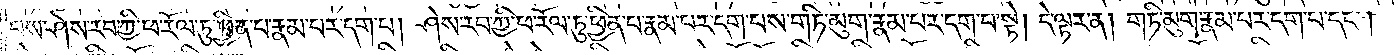པས་ཤེས་རབ་ཀྱི་ཕ་རོལ་ཏུ་ཕྱིན་པ་རྣམ་པར་དག་པ། ཤེས་རབ་ཀྱི་ཕ་རོལ་ཏུ་ཕྱིན་པ་རྣམ་པར་དག་པས་གཏི་མུག་རྣམ་པར་དག་པ་སྟེ། དེ་ལྟར་ན། གཏི་མུག་རྣམ་པར་དག་པ་དང༌།
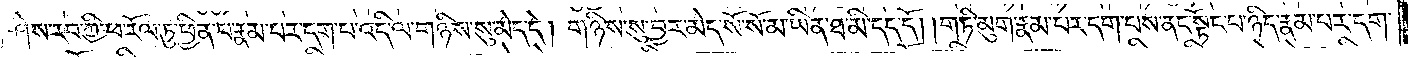ཤེས་རབ་ཀྱི་ཕ་རོལ་ཏུ་ཕྱིན་པ་རྣམ་པར་དག་པ་འདི་ལ་གཉིས་སུ་མེད་དེ། གཉིས་སུ་བྱར་མེད་སོ་སོ་མ་ཡིན་ཐ་མི་དད་དོ། །གཏི་མུག་རྣམ་པར་དག་པས་ནང་སྟོང་པ་ཉིད་རྣམ་པར་དག་
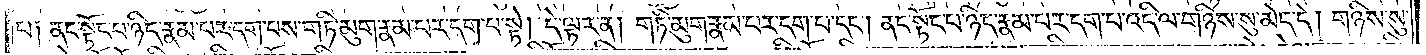པ༑ ནང་སྟོང་པ་ཉིད་རྣམ་པར་དག་པས་གཏི་མུག་རྣམ་པར་དག་པ་སྟེ། དེ་ལྟར་ན། གཏི་མུག་རྣམ་པར་དག་པ་དང༌། ནང་སྟོང་པ་ཉིད་རྣམ་པར་དག་པ་འདི་ལ་གཉིས་སུ་མེད་དེ། གཉིས་སུ་
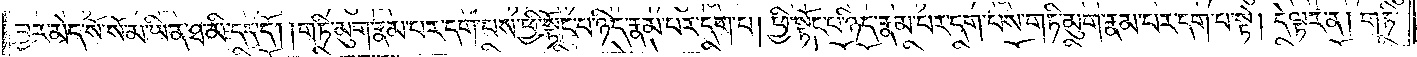བྱར་མེད་སོ་སོ་མ་ཡིན་ཐ་མི་དད་དོ། །གཏི་མུག་རྣམ་པར་དག་པས་ཕྱི་སྟོང་པ་ཉིད་རྣམ་པར་དག་པ། ཕྱི་སྟོང་པ་ཉིད་རྣམ་པར་དག་པས་གཏི་མུག་རྣམ་པར་དག་པ་སྟེ། དེ་ལྟར་ན། གཏི་
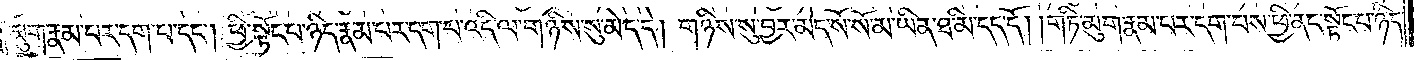མུག་རྣམ་པར་དག་པ་དང༌། ཕྱི་སྟོང་པ་ཉིད་རྣམ་པར་དག་པ་འདི་ལ་གཉིས་སུ་མེད་དེ། གཉིས་སུ་བྱར་མེད་སོ་སོ་མ་ཡིན་ཐ་མི་དད་དོ། །གཏི་མུག་རྣམ་པར་དག་པས་ཕྱི་ནང་སྟོང་པ་ཉིད་
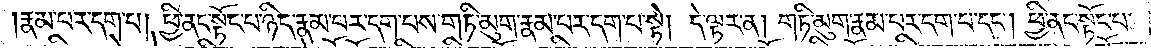རྣམ་པར་དག་པ། ཕྱི་ནང་སྟོང་པ་ཉིད་རྣམ་པར་དག་པས་གཏི་མུག་རྣམ་པར་དག་པ་སྟེ། དེ་ལྟར་ན། གཏི་མུག་རྣམ་པར་དག་པ་དང༌། ཕྱི་ནང་སྟོང་པ་
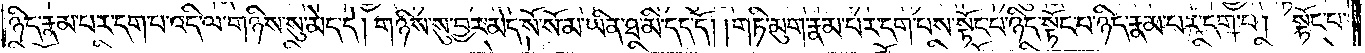ཉིད་རྣམ་པར་དག་པ་འདི་ལ་གཉིས་སུ་མེད་དེ། གཉིས་སུ་བྱར་མེད་སོ་སོ་མ་ཡིན་ཐ་མི་དད་དོ། །གཏི་མུག་རྣམ་པར་དག་པས་སྟོང་པ་ཉིད་སྟོང་པ་ཉིད་རྣམ་པར་དག་པ། སྟོང་པ་
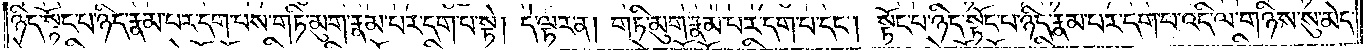ཉིད་སྟོང་པ་ཉིད་རྣམ་པར་དག་པས་གཏི་མུག་རྣམ་པར་དག་པ་སྟེ། དེ་ལྟར་ན། གཏི་མུག་རྣམ་པར་དག་པ་དང༌། སྟོང་པ་ཉིད་སྟོང་པ་ཉིད་རྣམ་པར་དག་པ་འདི་ལ་གཉིས་སུ་མེད་
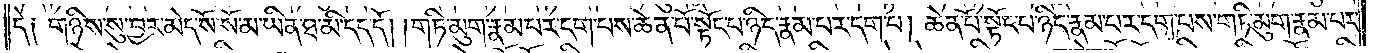དེ༑ གཉིས་སུ་བྱར་མེད་སོ་སོ་མ་ཡིན་ཐ་མི་དད་དོ། །གཏི་མུག་རྣམ་པར་དག་པས་ཆེན་པོ་སྟོང་པ་ཉིད་རྣམ་པར་དག་པ། ཆེན་པོ་སྟོང་པ་ཉིད་རྣམ་པར་དག་པས་གཏི་མུག་རྣམ་པར་
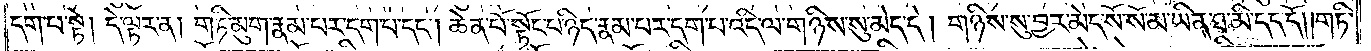དག་པ་སྟེ། དེ་ལྟར་ན། གཏི་མུག་རྣམ་པར་དག་པ་དང༌། ཆེན་པོ་སྟོང་པ་ཉིད་རྣམ་པར་དག་པ་འདི་ལ་གཉིས་སུ་མེད་དེ། གཉིས་སུ་བྱར་མེད་སོ་སོ་མ་ཡིན་ཐ་མི་དད་དོ། །གཏི་
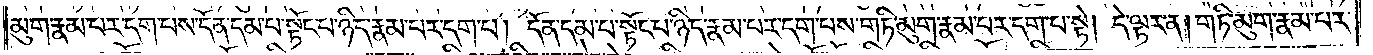མུག་རྣམ་པར་དག་པས་དོན་དམ་པ་སྟོང་པ་ཉིད་རྣམ་པར་དག་པ། དོན་དམ་པ་སྟོང་པ་ཉིད་རྣམ་པར་དག་པས་གཏི་མུག་རྣམ་པར་དག་པ་སྟེ། དེ་ལྟར་ན། གཏི་མུག་རྣམ་པར་
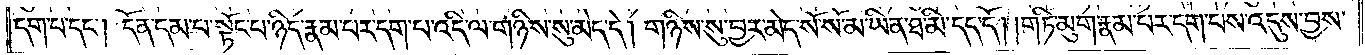དག་པ་དང༌། དོན་དམ་པ་སྟོང་པ་ཉིད་རྣམ་པར་དག་པ་འདི་ལ་གཉིས་སུ་མེད་དེ། གཉིས་སུ་བྱར་མེད་སོ་སོ་མ་ཡིན་ཐ་མི་དད་དོ། །གཏི་མུག་རྣམ་པར་དག་པས་འདུས་བྱས་
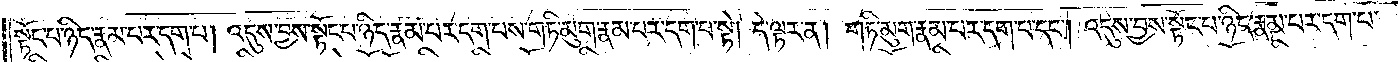སྟོང་པ་ཉིད་རྣམ་པར་དག་པ། འདུས་བྱས་སྟོང་པ་ཉིད་རྣམ་པར་དག་པས་གཏི་མུག་རྣམ་པར་དག་པ་སྟེ། དེ་ལྟར་ན། གཏི་མུག་རྣམ་པར་དག་པ་དང༌། འདུས་བྱས་སྟོང་པ་ཉིད་རྣམ་པར་དག་པ་
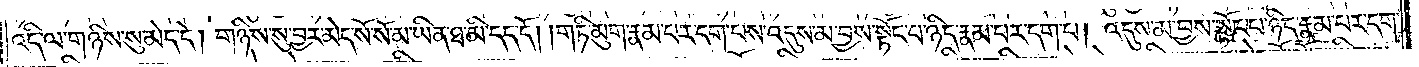འདི་ལ་གཉིས་སུ་མེད་དེ། གཉིས་སུ་བྱར་མེད་སོ་སོ་མ་ཡིན་ཐ་མི་དད་དོ། །གཏི་མུག་རྣམ་པར་དག་པས་འདུས་མ་བྱས་སྟོང་པ་ཉིད་རྣམ་པར་དག་པ། འདུས་མ་བྱས་སྟོང་པ་ཉིད་རྣམ་པར་དག་
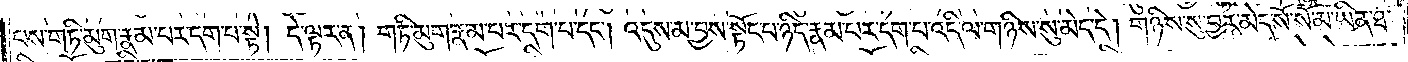པས་གཏི་མུག་རྣམ་པར་དག་པ་སྟེ། དེ་ལྟར་ན། གཏི་མུག་རྣམ་པར་དག་པ་དང༌། འདུས་མ་བྱས་སྟོང་པ་ཉིད་རྣམ་པར་དག་པ་འདི་ལ་གཉིས་སུ་མེད་དེ། གཉིས་སུ་བྱར་མེད་སོ་སོ་མ་ཡིན་ཐ་
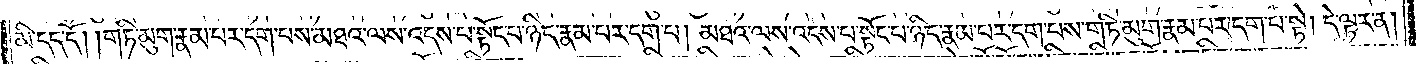མི་དད་དོ། །གཏི་མུག་རྣམ་པར་དག་པས་མཐའ་ལས་འདས་པ་སྟོང་པ་ཉིད་རྣམ་པར་དག་པ། མཐའ་ལས་འདས་པ་སྟོང་པ་ཉིད་རྣམ་པར་དག་པས་གཏི་མུག་རྣམ་པར་དག་པ་སྟེ། དེ་ལྟར་ན།
